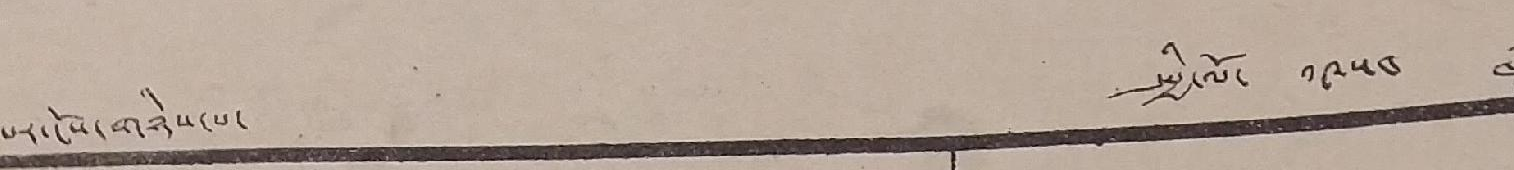པར་ངོས་གཉིས་པ་ སྤྱི་ལོ་ ༡༩༥༤ ཟླ་
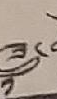༡
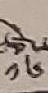ཚེས་
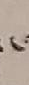༡༦
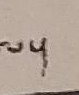ལ་།
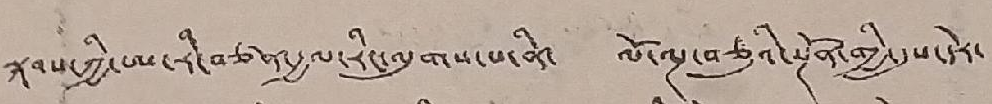སྐབས་ཀྱི་ཨ་རི་བཙན་རྒྱལ་རིང་ལུགས་པ་ནི་ ལོ་ལྔ་བཅུའི་སྔོན་གྱི་དུས་དེར་
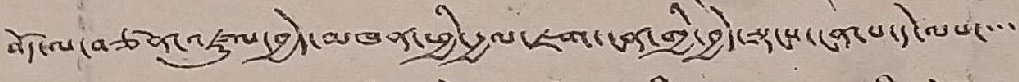བོད་ལ་བཙན་འཛུལ་བྱེད་མཁན་ཕྱི་རྒྱལ་ཇག་ངན་གྱི་བྱེད་སྟངས་ངན་པ་དེ་ལས་་་
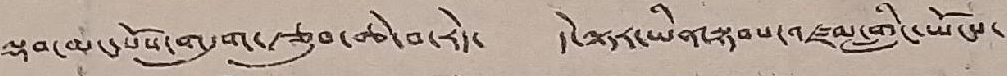ལྡབ་མང་པོས་གདུག་རྩུབ་ཆེ་བ་རེད་ དེ་ལྟར་ཡིན་སྟབས་འཛམ་གླིང་ཡོངས་
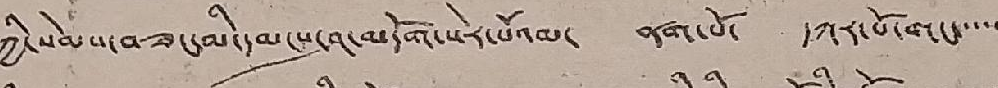ཀྱི་སེམས་བཟང་མི་དམངས་ཤ་མདོག་སེར་པོའམ་ ནག་པོ་ དཀར་པོ་གང་་་་
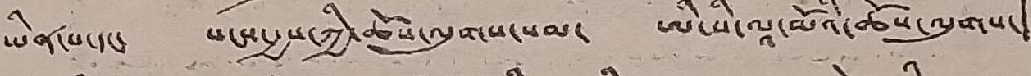ཡིན་པ་དང་ སངས་རྒྱས་ཀྱི་ཆོས་ལུགས་སམ་ ཨི་སི་ལཱ་མོའི་ཆོས་ལུགས་
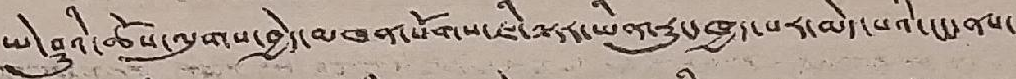ཡེ་ཤུའི་ཆོས་ལུགས་བྱེད་མཁན་སོགས་ཇི་ལྟར་ཡིན་རུང་ཁྱད་པར་མེད་པའི་ངང་ནས་
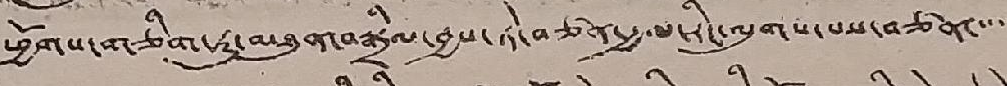ཕྱོགས་གཅིག་ཏུ་མཐུན་བསྒྲིལ་བྱས་ཏེ་བཙན་རྒྱལ་རིང་ལུགས་པས་བཙན་་་་
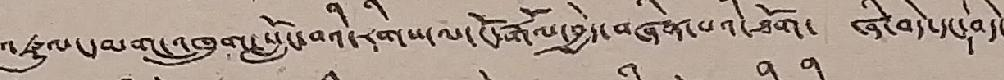འཛུལ་དམག་འཁྲུག་སློང་བའི་རིགས་ལ་ངོ་རྒོལ་བྱེད་བཞིན་པའི་ཐོག་ ཞི་བདེ་དང་བདེ་
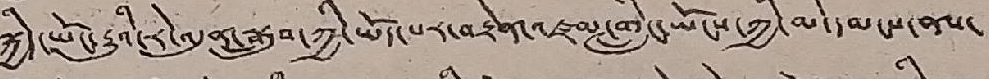སྐྱིད་ཡོང་རྒྱུའི་རེ་འདུན་སྒྲུབ་ཀྱི་ཡོད་པར་བརྟེན་འཛམ་གླིང་ཡོངས་ཀྱི་མི་དམངས་ནས་
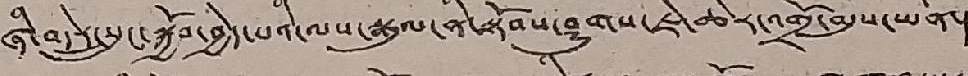ཞི་བདེར་སྲུང་སྐྱོབ་བྱེད་པའི་ལས་སྒུལ་ནི་སྟོབས་ཤུགས་ཇེ་ཆེར་འགྲོ་མུས་ཡིན་
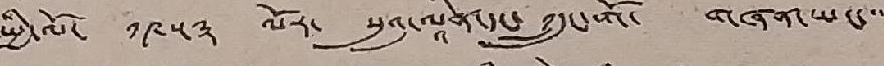སྤྱི་ལོ་༡༩༥༣་ལོར་སུའུ་ལཱིན་དང་ ཀྲུང་གོ་ གཞན་ཡང་་་
